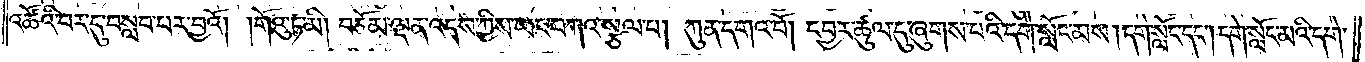འཚོའི་བར་དུ་བསླབ་པར་བྱའོ། །གོའུ་ཏ་མི། བཅོམ་ལྡན་འདས་ཀྱིས་ཡང་བཀའ་སྩལ་པ། ཀུན་དགའ་བོ། དབྱར་ཚུལ་དུ་ཞུགས་པའི་དགེ་སློང་མས། དགེ་སློང་དང༌། དགེ་སློང་མའི་དགེ་
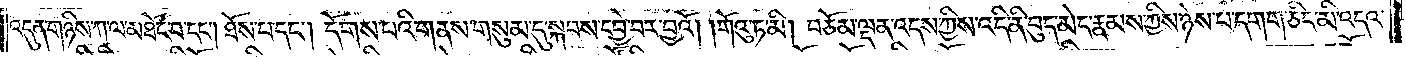འདུན་གཉིས་ཀ་ལ་མཐོང་བ་དང༌། ཐོས་པ་དང༌། དོགས་པའི་གནས་གསུམ་དུ་སྐབས་དབྱེ་བར་བྱའོ། །གོའུ་ཏ་མི། བཅོམ་ལྡན་འདས་ཀྱིས་འདི་ནི་བུད་མེད་རྣམས་ཀྱིས་ཉེས་པ་དགག་ཅིང་མི་འདའ་
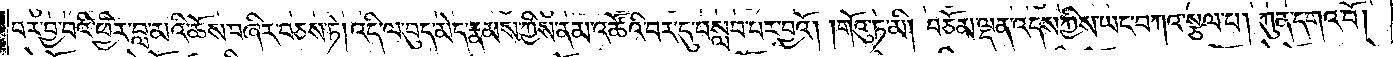བར་བྱ་བའི་ཕྱིར་བླ་མའི་ཆོས་བཞིར་བཅས་ཏེ། འདི་ལ་བུད་མེད་རྣམས་ཀྱིས་ནམ་འཚོའི་བར་དུ་བསླབ་པར་བྱའོ། །གོའུ་ཏ་མི། བཅོམ་ལྡན་འདས་ཀྱིས་ཡང་བཀའ་སྩལ་པ། ཀུན་དགའ་བོ།
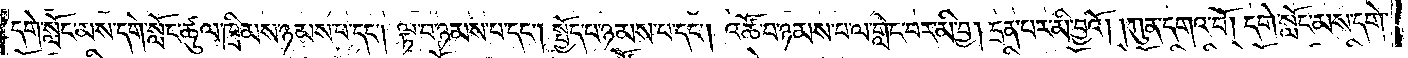དགེ་སློང་མས་དགེ་སློང་ཚུལ་ཁྲིམས་ཉམས་པ་དང༌། ལྟ་བ་ཉམས་པ་དང༌། སྤྱོད་པ་ཉམས་པ་དང༌། འཚོ་བ་ཉམས་པ་ལ་གླེང་བར་མི་བྱ། དྲན་པར་མི་བྱའོ། །ཀུན་དགའ་བོ། དགེ་སློང་མས་དགེ་
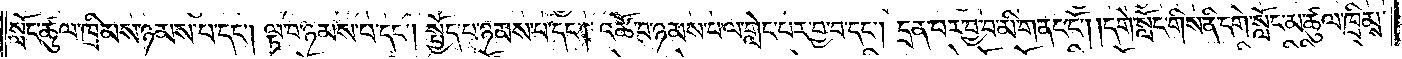སློང་ཚུལ་ཁྲིམས་ཉམས་པ་དང༌། ལྟ་བ་ཉམས་པ་དང༌། སྤྱོད་པ་ཉམས་པ་དང༌། འཚོ་བ་ཉམས་པ་ལ་གླེང་བར་བྱ་བ་དང༌། དྲན་པར་བྱ་བ་མི་གནང་ངོ༌། །དགེ་སློང་གིས་ནི་དགེ་སློང་མ་ཚུལ་ཁྲིམས་
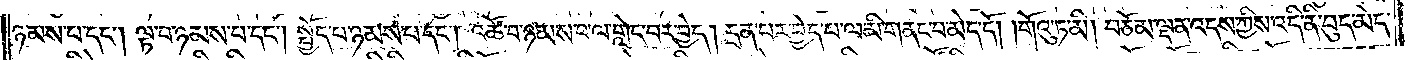ཉམས་པ་དང༌། ལྟ་བ་ཉམས་པ་དང༌། སྤྱོད་པ་ཉམས་པ་དང༌། འཚོ་བ་ཉམས་པ་ལ་གླེང་བར་བྱེད། དྲན་པར་བྱེད་པ་ལ་མི་གནང་བ་མེད་དོ། །གོའུ་ཏ་མི། བཅོམ་ལྡན་འདས་ཀྱིས་འདི་ནི་བུད་མེད་
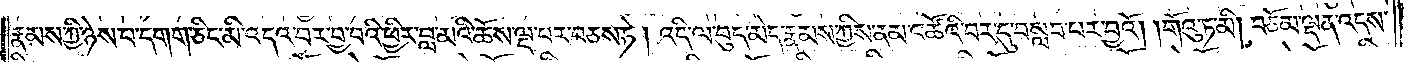རྣམས་ཀྱི་ཉེས་པ་དགག་ཅིང་མི་འདའ་བར་བྱ་བའི་ཕྱིར་བླ་མའི་ཆོས་ལྔ་པར་བཅས་ཏེ། འདི་ལ་བུད་མེད་རྣམས་ཀྱིས་ནམ་ང་ཚོའི་བར་དུ་བསླབ་པར་བྱའོ། །གོའུ་ཏ་མི། བཅོམ་ལྡན་འདས་
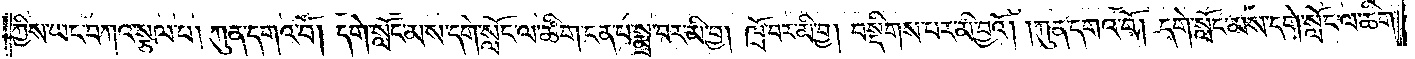ཀྱིས་ཡང་བཀའ་སྩལ་པ། ཀུན་དགའ་བོ། དགེ་སློང་མས་དགེ་སློང་ལ་ཚིག་ངན་པ་སྨྲ་བར་མི་བྱ། ཁྲོ་བར་མི་བྱ། བསྡིགས་པར་མི་བྱའོ། །ཀུན་དགའ་བོ། དགེ་སློང་མས་དགེ་སློང་ལ་ཚིག་
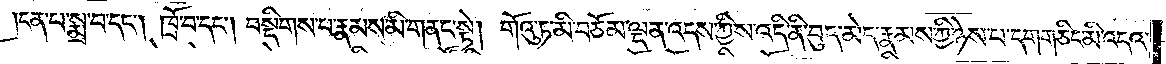ངན་པ་སྨྲ་བ་དང༌། ཁྲོ་བ་དང༌། བསྡིགས་པ་རྣམས་མི་གནང་སྟེ། གོའུ་ཏ་མི་བཅོམ་ལྡན་འདས་ཀྱིས་འདི་ནི་བུད་མེད་རྣམས་ཀྱི་ཉེས་པ་དགག་ཅིང་མི་འདའ་
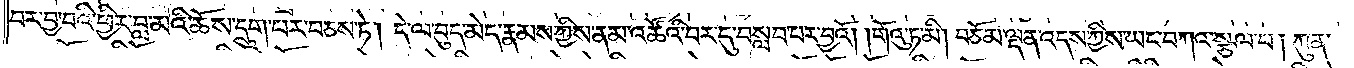བར་བྱ་བའི་ཕྱིར་བླ་མའི་ཆོས་དྲུག་པར་བཅས་ཏེ། དེ་ལ་བུད་མེད་རྣམས་ཀྱིས་ནམ་འཚོའི་བར་དུ་བསླབ་པར་བྱའོ། །གོའུ་ཏ་མི། བཅོམ་ལྡན་འདས་ཀྱིས་ཡང་བཀའ་སྩལ་པ། ཀུན་
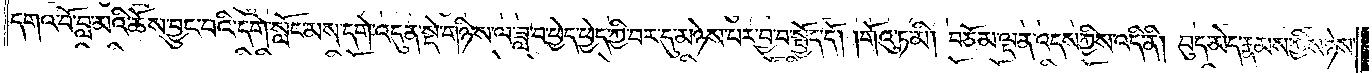དགའ་བོ་བླ་མའི་ཆོས་བྱུང་བའི་དགེ་སློང་མས་དགེ་འདུན་སྡེ་གཉིས་ལ་ཟླ་བ་ཕྱེད་ཕྱེད་ཀྱི་བར་དུ་མཉེས་པར་བྱ་བ་སྤྱོད་དོ། །གོའུ་ཏ་མི། བཅོམ་ལྡན་འདས་ཀྱིས་འདི་ནི། བུད་མེད་རྣམས་ཀྱིས་ཉེས་
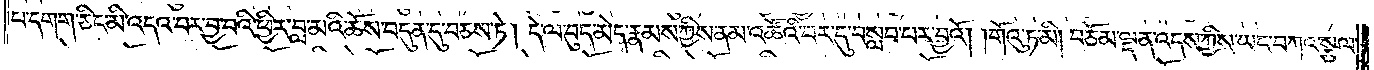པ་དགག་ཅིང་མི་འདའ་བར་བྱ་བའི་ཕྱིར་བླ་མའི་ཆོས་བདུན་དུ་བཅས་ཏེ། དེ་ལ་བུད་མེད་རྣམས་ཀྱིས་ནམ་འཚོའི་བར་དུ་བསླབ་པར་བྱའོ། །གོའུ་ཏ་མི། བཅོམ་ལྡན་འདས་ཀྱིས་ཡང་བཀའ་སྩལ་
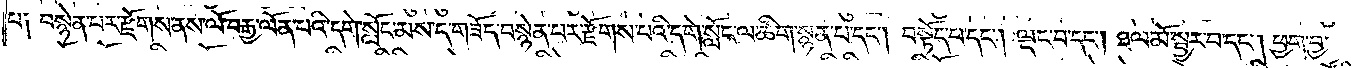པ༑ བསྙེན་པར་རྫོགས་ནས་ལོ་བརྒྱ་ལོན་པའི་དགེ་སློང་མས་ད་གཟོད་བསྙེན་པར་རྫོགས་པའི་དགེ་སློང་ལ་ཚིག་སྙན་པ་དང༌། བསྟོད་པ་དང༌། ལྡང་བ་དང༌། ཐལ་མོ་སྦྱར་བ་དང༌། ཕྱག་བྱ་
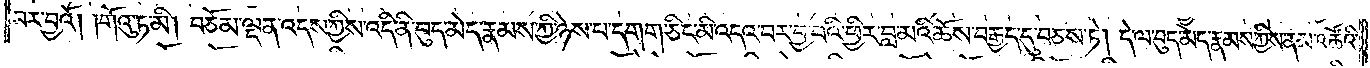བར་བྱའོ། །གོའུ་ཏ་མི། བཅོམ་ལྡན་འདས་ཀྱིས་འདི་ནི་བུད་མེད་རྣམས་ཀྱི་ཉེས་པ་དགག་ཅིང་མི་འདའ་བར་བྱ་བའི་ཕྱིར་བླ་མའི་ཆོས་བརྒྱད་དུ་བཅས་ཏེ། དེ་ལ་བུད་མེད་རྣམས་ཀྱིས་ནམ་འཚོའི་
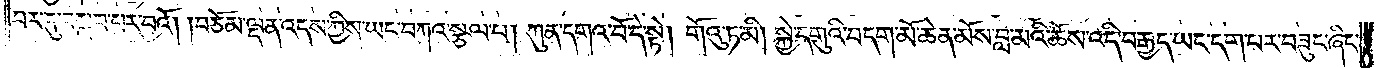བར་དུ་བསླབ་པར་བྱའོ། །བཅོམ་ལྡན་འདས་ཀྱིས་ཡང་བཀའ་སྩལ་པ། ཀུན་དགའ་བོ་དེ་སྟེ། གོའུ་ཏ་མི། སྐྱེ་དགུའི་བདག་མོ་ཆེན་མོས་བླ་མའི་ཆོས་འདི་བརྒྱད་ཡང་དག་པར་བཟུང་ཞིང་
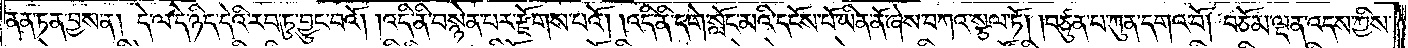ནན་ཏན་བྱས་ན། དེ་ལ་དེ་ཉིད་དེའི་རབ་ཏུ་བྱུང་བའོ། །འདི་ནི་བསྙེན་པར་རྫོགས་པའོ། །འདི་ནི་དགེ་སློང་མའི་དངོས་པོ་ཡིན་ནོ་ཞེས་བཀའ་སྩལ་ཏོ། །བཙུན་པ་ཀུན་དགའ་བོ། བཅོམ་ལྡན་འདས་ཀྱིས་
